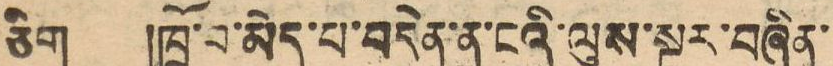ཅོག །ཁྲོ་བ་མེད་བདེན་ན་ངའི་ལུས་སྔར་བཞིན་
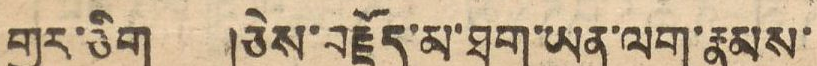གྱུར་ཅིག །ཅེས་བརྗོད་མ་ཐག་ཡན་ལག་རྣམས་
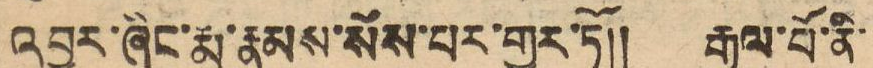འབྱར་ཞིང་རྨ་རྣམས་སོས་པར་གྱུར་ཏོ།། རྒྱལ་པོ་ནི་
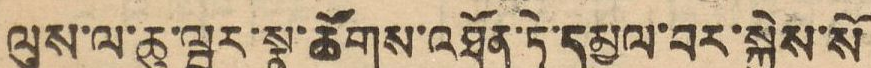ལུས་ལ་ཆུ་ཝུར་སྣ་ཚོགས་འཐོན་ཏེ་དམྱལ་བར་སྐྱེས་སོ
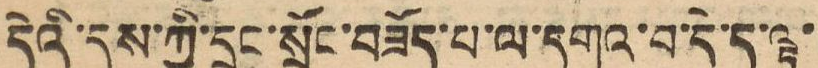དེའི་དུས་ཀྱི་དྲང་སྲོང་བཟོད་པ་ལ་དགའ་བ་དེ་ད་ལྟ་
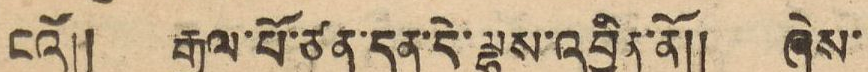ངའོ།། རྒྱལ་པོ་ཙན་དན་དེ་ལྷས་འབྱིན་ནོ།། ཞེས་
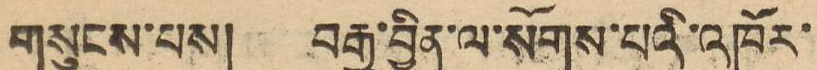གསུངས་པས། བརྒྱ་བྱིན་ལ་སོགས་པའི་འཁོར་
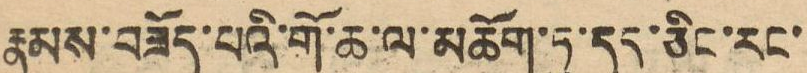རྣམས་བཟོད་པའི་གོ་ཆ་ལ་མཆོག་ཏུ་དད་ཅིང་རང་
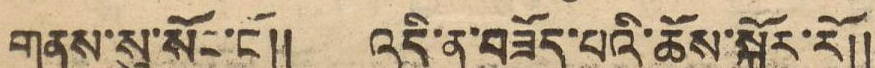གནས་སུ་སོང་ངོ།། འདི་ན་བཟོད་པའི་ཆོས་སྐོར་རོ།།
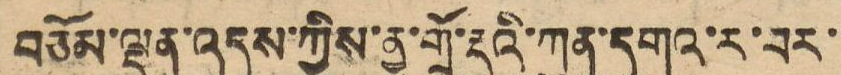བཅོམ་ལྡན་འདས་ཀྱིས་ན་གྲོ་རྡའི་ཀུན་དགའ་ར་བར་
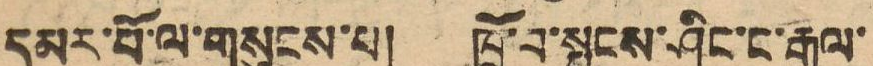དམར་པོ་ལ་གསུངས་པ། ཁྲོ་བ་སྤངས་ཤིང་ང་རྒྱལ་
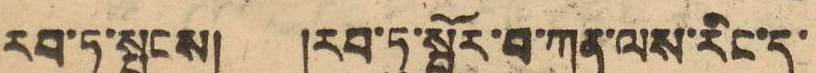རབ་ཏུ་སྤངས། རབ་ཏུ་སྦྱོར་བ་ཀུན་ལས་རིང་དུ་
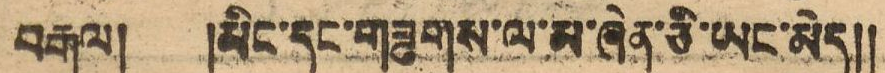བརྒལ། །མིང་དང་གཟུགས་ལ་མ་ཞེན་ཅི་ཡང་མེད།།
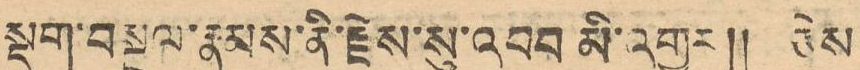སྡུག་བསྔལ་རྣམས་ནི་རྗེས་སུའི་འབབ མི་འགྱུར།། ཅེས
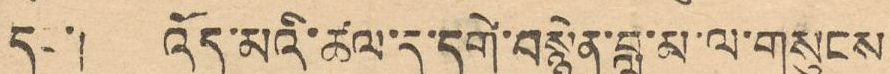དང་། འོད་མའི་ཚལ་དུ་དགེ་བསྙེན་བླ་མ་ལ་གསུངས
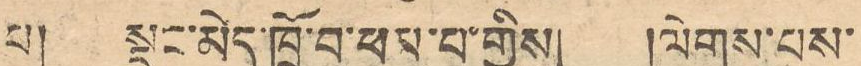པ། སྡང་མེད་ཁྲོ་བ་ཕམ་པ་གྱིས། །ལེགས་པས་
